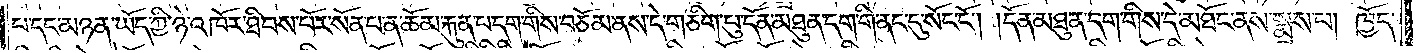པ་དང་མཉན་ཡོད་ཀྱི་ཉེ་འཁོར་ཐིབས་བོར་སོན་པ་ན་ཆོམ་རྐུན་པ་དག་གིས་བཅོམ་ནས་དེ་གཅིག་པུ་དོན་མཐུན་དག་གི་ནང་དུ་སོང་ངོ༌། །དོན་མཐུན་དག་གིས་དེ་མཐོང་ནས་སྨྲས་པ། ཁྱོད་
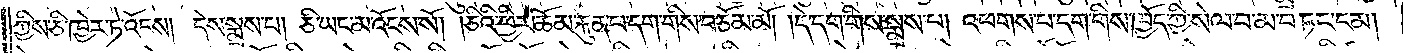ཀྱིས་ཅི་ཁྱེར་ཏེ་འོངས། དེས་སྨྲས་པ། ཅི་ཡང་མ་འོངས་སོ། །ཅིའི་ཕྱིར་ཆོམ་རྐུན་པ་དག་གིས་བཅོམ་མོ། །དེ་དག་གིས་སྨྲས་པ། འཕགས་པ་དག་གིས་ཁྱོད་ཀྱི་སེལ་བ་མ་བཏང་ངམ།
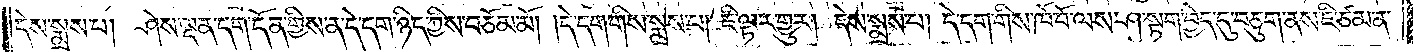དེས་སྨྲས་པ། ཤེས་ལྡན་དག་དོན་གྱིས་ན་དེ་དག་ཉིད་ཀྱིས་བཅོམ་མོ། །དེ་དག་གིས་སྨྲས་པ། ཇི་ལྟར་གྱུར། དེས་སྨྲས་པ། དེ་དག་གིས་ཁོ་བོ་ལས་ཤ་སྟག་བྱེད་དུ་བཅུག་ནས་ཇི་ཙམ་ན་
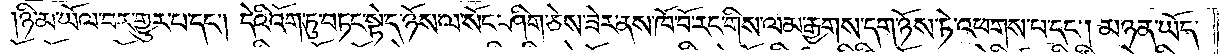ཉི་མ་ཡོལ་བར་གྱུར་པ་དང༌། དེའི་འོག་ཏུ་བཏང་སྟེ་ད་ཉོས་ལ་སོང་ཤིག་ཅེས་ཟེར་ནས་ཁོ་བོ་རང་གིས་ལམ་རྒྱགས་དག་ཉོས་ཏེ་འཕགས་པ་དང༌། མཉན་ཡོད་
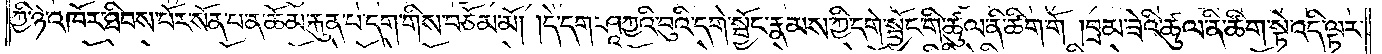ཀྱི་ཉེ་འཁོར་ཐིབས་པོར་སོན་པ་ན་ཆོམ་རྐུན་པ་དག་གིས་བཅོམ་མོ། །དེ་དག་ཤཱཀྱའི་བུའི་དགེ་སྦྱོང་རྣམས་ཀྱི་དགེ་སྦྱོང་གི་ཚུལ་ནི་ཚིག་གོ །བྲམ་ཟེའི་ཚུལ་ནི་ཚིག་སྟེ་འདི་ལྟར་
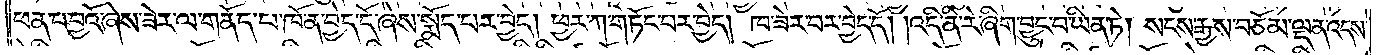ཕན་པ་བྱའོ་ཞེས་ཟེར་ལ་གནོད་པ་ཁོ་ན་བྱེད་དོ་ཞེས་སྨོད་པར་བྱེད། ཕྱར་ཀ་གཏོང་བར་བྱེད། ཁ་ཟེར་བར་བྱེད་དོ། །འདི་ནི་རེ་ཞིག་བྱུང་བ་ཡིན་ཏེ། སངས་རྒྱས་བཅོམ་ལྡན་འདས་
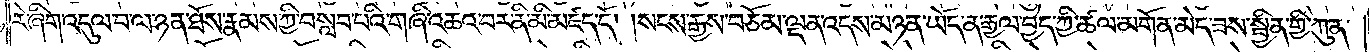རེ་ཞིག་འདུལ་བ་ལ་ཉན་ཐོས་རྣམས་ཀྱི་བསླབ་པའི་གཞི་འཆའ་བར་ནི་མི་མཛད་དོ། །སངས་རྒྱས་བཅོམ་ལྡན་འདས་མཉན་ཡོད་ན་རྒྱལ་བྱེད་ཀྱི་ཚལ་མགོན་མེད་ཟས་སྦྱིན་གྱི་ཀུན་
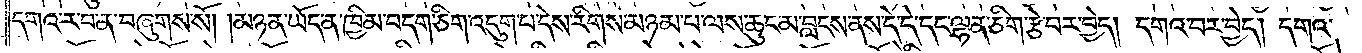དགའ་ར་བ་ན་བཞུགས་སོ། །མཉན་ཡོད་ན་ཁྱིམ་བདག་ཅིག་འདུག་པ་དེས་རིགས་མཉམ་པ་ལས་ཆུང་མ་བླངས་ནས་དེ་དེ་དང་ལྷན་ཅིག་རྩེ་བར་བྱེད། དགའ་བར་བྱེད། དགའ་
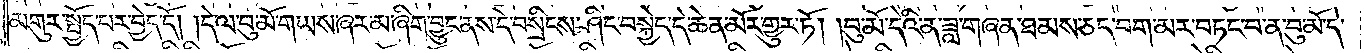མགུར་སྤྱོད་པར་བྱེད་དོ། །དེ་ལ་བུ་མོ་གཡས་ཞར་མ་ཞིག་བྱུང་ནས་དེ་བསྲིངས་ཤིང་བསྐྱེད་དེ་ཆེན་མོར་གྱུར་ཏོ། །བུ་མོ་དེའི་ན་ཟླ་གཞན་ཐམས་ཅད་བག་མར་བཏང་བ་ན་བུ་མོ་དེ་
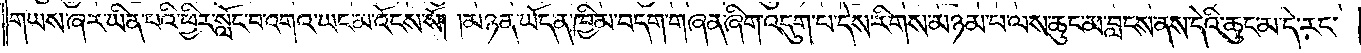གཡས་ཞར་ཡིན་པའི་ཕྱིར་སློང་བ་འགའ་ཡང་མ་འོངས་སོ། །མཉན་ཡོད་ན་ཁྱིམ་བདག་གཞན་ཞིག་འདུག་པ་དེས་རིགས་མཉམ་པ་ལས་ཆུང་མ་བླངས་ནས་དེའི་ཆུང་མ་དེ་རང་
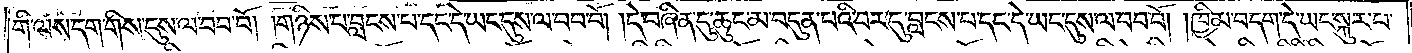གི་ལས་དག་གིས་དུས་ལ་བབ་བོ། །གཉིས་པ་བླངས་པ་དང་དེ་ཡང་དུས་ལ་བབ་བོ། །དེ་བཞིན་དུ་ཆུང་མ་བདུན་པའི་བར་དུ་བླངས་པ་དང་དེ་ཡང་དུས་ལ་བབ་བོ། །ཁྱིམ་བདག་དེ་ཡང་སྐུར་པ་
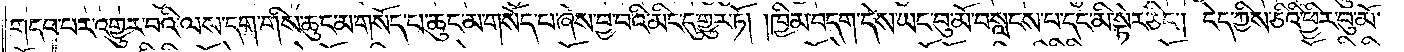གདབ་པར་འགྱུར་བའི་ལས་དག་གིས་ཆུང་མ་གསོད་པ་ཆུང་མ་གསོད་པ་ཞེས་བྱ་བའི་མིང་དུ་གྱུར་ཏོ། །ཁྱིམ་བདག་དེས་ཡང་བུ་མོ་བསླངས་པ་དང་མི་སྟེར་ཅིང༌། ངེད་ཀྱིས་ཅིའི་ཕྱིར་བུ་མོ་
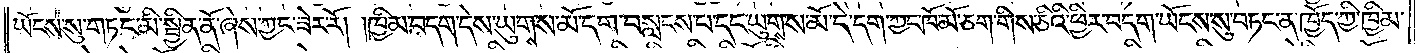ཡོངས་སུ་གཏང་མི་སྦྱིན་ནོ་ཞེས་ཀྱང་ཟེར་རོ། །ཁྱིམ་བདག་དེས་ཡུགས་མོ་དག་བསླངས་པ་དང་ཡུགས་ས་མོ་དེ་དག་ཀྱང་ཁོ་མོ་ཅག་གིས་ཅིའི་ཕྱིར་བདག་ཡོངས་སུ་བཏང་ན་ཁྱོད་ཀྱི་ཁྱིམ་
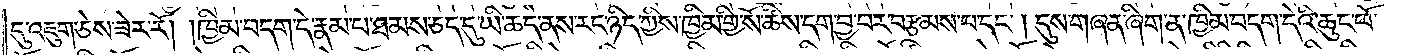དུ་འཇུག་ཅེས་ཟེར་རོ། །ཁྱིམ་བདག་དེ་རྣམ་པ་ཐམས་ཅད་དུ་ཡི་ཆད་ནས་རང་ཉིད་ཀྱིས་ཁྱིམ་གྱི་སོ་ཚིས་དག་བྱ་བར་བརྩམས་པ་དང༌། དུས་གཞན་ཞིག་ན་ཁྱིམ་བདག་དེའི་ཆུང་པོ་
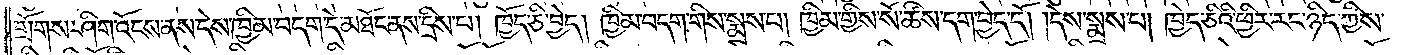གྲོགས་ཤིག་འོངས་ནས་དེས་ཁྱིམ་བདག་དེ་མཐོང་ནས་དྲིས་པ། ཁྱོད་ཅི་བྱེད། ཁྱིམ་བདག་གིས་སྨྲས་པ། ཁྱིམ་གྱིས་སོ་ཚིས་དག་བྱེད་དོ། །དེས་སྨྲས་པ། ཁྱེད་ཅིའི་ཕྱིར་རང་ཉིད་ཀྱིས་
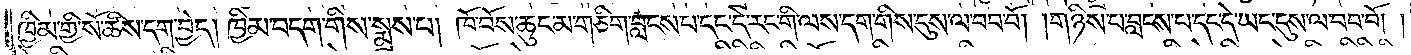ཁྱིམ་གྱི་སོ་ཚིས་དག་བྱེད། ཁྱིམ་བདག་གིས་སྨྲས་པ། ཁོ་བོས་ཆུང་མ་གཅིག་བླངས་པ་དང་དེ་རང་གི་ལས་དག་གིས་དུས་ལ་བབ་བོ། །གཉིས་པ་བླངས་པ་དང་དེ་ཡང་དུས་ལ་བབ་བོ། །
